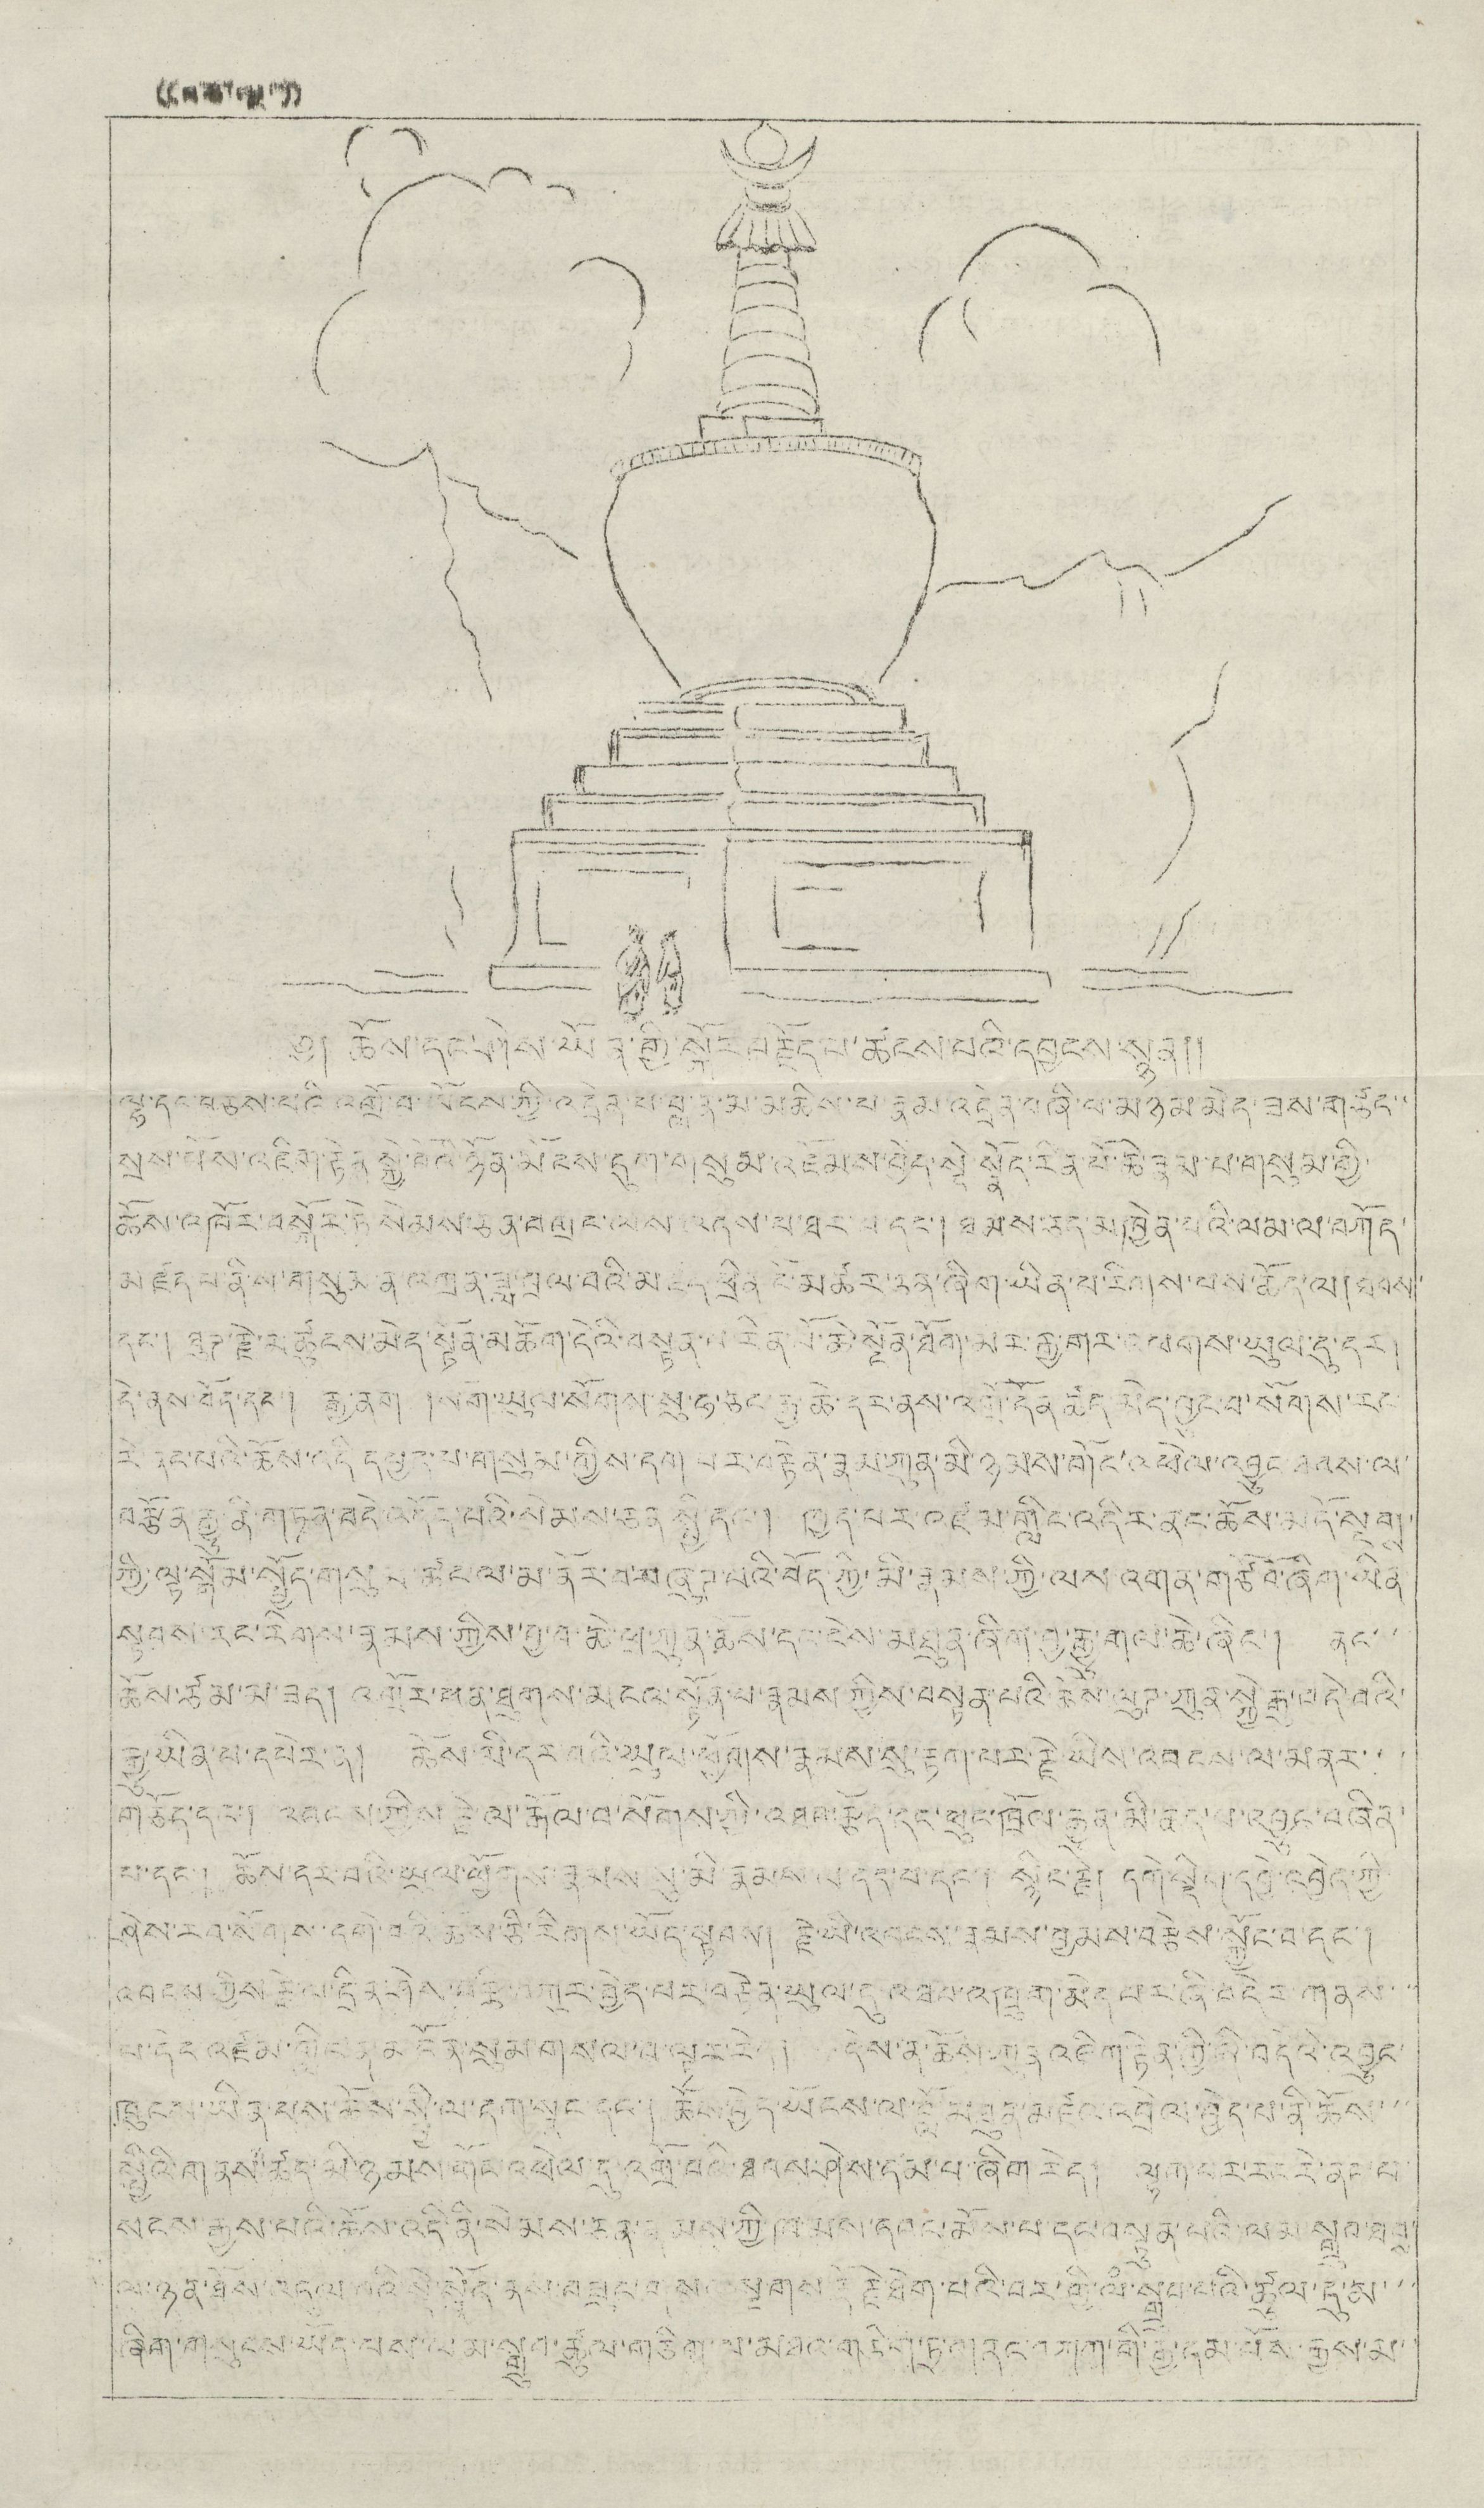(( བཅོ་ལྔ་ ))
༄། ཆོས་དང་ཤེས་ཡོན་གྱི་སྐོར་བརྗོད་པ་ཚངས་པའི་དབྱངས་སྙན།།
ལྷ་དང་བཅས་པའི་འགྲོ་བ་ཡོངས་ཀྱི་འདྲེན་པ་བླ་ན་མ་མཆོས་པ་རྣམ་འདྲེན་བཞི་པ་མཉམ་མེད་ཟས་གཙང་་
སྲས་པོས་འཇིག་རྟེན་སྐྱེ་བོའི་ཉོན་མོངས་དུག་གསུམ་འཛོམས་བྱེད་སྡེ་སྣོད་རིན་པོ་ཆེན་རྣམ་པ་གསུམ་གྱི་
ཆོས་འཁོར་བསྐོར་ཏེ་སེམས་ཅན་བགྲང་ལས་འདས་པ་ཐར་པ་དང་། ཐམས་ཅད་འཁྱེན་པའི་ལམ་ལ་བཀོད་
མཛད་པ་ནི་ས་གསུམ་ན་འགྲན་ཟླ་བྲལ་བའི་མཛད་ཕྲིན་ངོ་མཚར་ཅན་ཞིག་ཡིན་པ་རིགས་པས་ཆོད་ལ།ཐབས་
དང་། ཐུཊ་རྗེ་མཚུངས་མེད་སྟོན་མཆོག་དེའི་བསྟན་པ་རིན་པོ་ཆེ་སྔོན་ཐོག་མར་རྒྱ་གར་འཕགས་ཡུལ་དུ་དར།
དེ་ནས་བོད་དང་། རྒྱ་ནག །སོག་ཡུལ་སོགས་སུ་ཧ་ཅང་རྒྱ་ཆེ་དར་ནས་འགྲོ་དོན་ཚད་མེད་བྱུང་བ་སོགས་རང་
རི་ནང་པའི་ཆོས་འདི་དཔྱད་པ་གསུམ་གྱིས་དག་པར་བརྟེན་རྣམ་ཀུན་མི་ཉམས་གོང་འཕེལ་འབྱུང་ཐབས་ལ་
བརྩོན་རྒྱུ་ནི་གཏན་བདེ་འདོད་པའི་སེམས་ཅན སྤྱི་དང་། ཁྱད་པར་འཛམ་གླིང་འདིར་ནང་ཆོས་མདོ་སྔགས་
ཀྱི་ལྟ་སྒོམ་སྤྱོད་གསུམ་ཚང་ལ་མ་ནོར་བ་བཞུཊ་པའི་བོད་ཀྱི་མི་རྣམས་ཀྱི་ལས་འགན་གཙོ་བོ་ཞིག་ཡིན་
སྟབས་རང་རིགས་རྣམས་ཀྱིས་བྱ་བ་ཆེ་ཕྲ་ཀུན་ཆོས་དང་ངེས་མཐུན་ཞིག་བྱ་རྒྱུ་གལ་ཆེ་ཞིང་། ནང་་
ཆོས་ཙམ་མ་ཟད། འགྲོར་ཕན་ཐུགས་མངལ་སྟོན་པ་རྣམས་ཀྱིས་བསྟན་པའི་ཆོས་ལུཊ་ཀུན་སྐྱེ་རྒུ་བདེ་བའི་
རྒྱུ་ཡིན་པ་དཔེར་ན། ཆོས་མི་དར་བའི་ཡུལ་ཕྱོགས་རྣམས་སུ་རྟག་པར་རྗེ་ཡིས་འབངས་ལ་མནར་་་
གཅོད་དང་། འབངས་ཀྱིས་རྗེ་ལ་རྒོལ་བ་སོགས་ཀྱི་འཐབ་རྩོད་དང་ཕུང་ཁྲོལ་རྒྱུན་མི་ཆད་པ་འབྱུང་བཞིན་
པ་དང་། ཆོས་དར་བའི་ཡུལ་ཕྱོགས་རྣམས་སུ་མི་རྣམས་པ་དད་པ་དང་། སྙིང་རྗེ། དགེ་སྡིག་དབྱེ་འབྱེད་ཀྱི
ཤེས་རབ་སོགས་སྒེ་བའི་ཆོས་ཅི་རིགས་ཡོད་སྟབས། རྗེ་ཡི་འབངས་རྣམས་བྱམས་བརྩེས་སྐྱོང་བ་དང་
འབངས ཀྱིས རྗེ་ལ་དྲིན་ཤེས་བརྩི་བཀུར་བྱེད་པར་བརྟེན་ཡུལ་དུ འཐབ་འཁྲུག་མེད་བར་ཞི་བདེར་གནས་་་
པ་དེང འཛམ་གླིང་ན་མངོན་གསུམ་གསལ་བ་ལྟར་རེད། དེས་ན་ཆོས་ཀུན འཇིག་རྟེན་གྱི་ཞི་བདེའི་འབྱུང་
ཁུངས་ཡིན་པས་ཆོས་སྤྱི་ལ་དག་སྣང་དང་། ཆོས་བྱེད་ཡོངས་ལ་བློ་མཐུན་འཛའ་འབྲེལ་བྱེད་པ་ནི་ཆོས་་་
སྤྱིའི་གནས་ཚད་མི་ཉམས་གོང་འཕེལ་དུ་འགྲོ་བའི་ཐབས་ཤེས་དམ་པ་ཞིག་རེད། ལྷག་པར་རང་རེ་ནང་པ་
སངས་རྒྱས་པའི་ཆོས་འདི་ནི་སེམས་ཅན་རྣམས་ཀྱི་ཁམས་དབང་མོས་པ་དང་བསྟུན་པའི་ལམ་སྒྲུབ་ཐབས་
ལ་ཉན་ཐོས་འདུལ་བའི་སྡེ་སྣོད་ནས་བཟུང་གསལ་སྔགས་རྡོ་རྗེ་ཐེག་པའི་བར་གྱི་ལཾ་སྒྲབ་པའི་ཚུལ་དུ་མ་་་
ཞིག་གསུངས་ཡོད་པས་ལམ་སྒྲུབ་ཚུལ་གཅིག་ལ་འཐའ་གཅིག་ཏུ་གནང་བཀག་གི་རྒྱ་དམ་པོས་རྒྱས་མ་་
